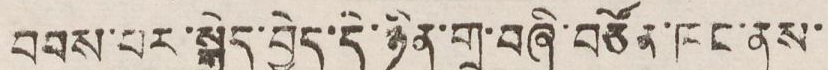བབས་པར་སྒྱིད་བྱེད་དེ་ཉིན་གྲ་བཞི་བཙོན་ཁང་ནས་
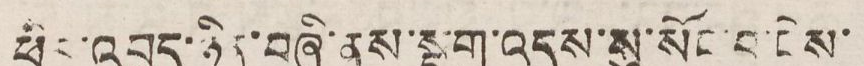ཕྱིར་འབུད་ཉིན་བཞི་ནས་སྡུག་འདས་སུ་སོང་བ་ངེས་
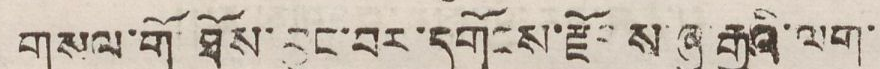གསལ་གོ ཐོས་བྱུང་དགོངས་རྫོགས་ཞུ་རྒྱུའི་ལག་
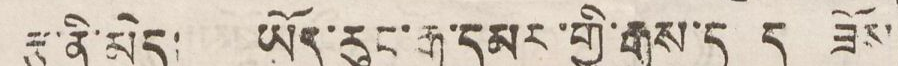རྩ་ནི་མེད། ཡོད་རུང་རྒྱ་དམར་གྱི་རྒྱས་དཔྱད ཟོས
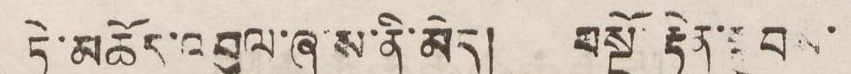ཏེ་མཆོད་འབུལ་ཞུ་ས་ནི་མེད། བསྔོ་རྟེན་སྐྱབས་
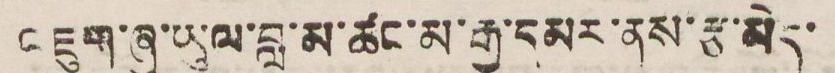འཇུག་ཞུ་ཡུལ་བླ་མ་ཚང་མ་རྒྱ་དམར་ནས་རྩ་མེད་
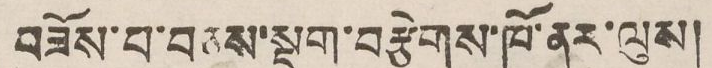བཟོས་པ་བཅས་སྡུག་བརྩེགས་ཁོ་ནར་ལུས།
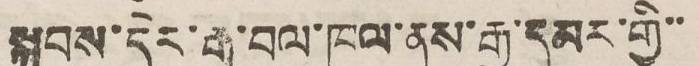སྐབས་དེར་རྒྱ་བལ་ཁུལ་ནས་རྒྱ་དམར་གྱི་་
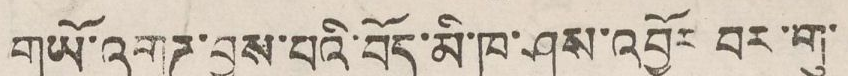གཡོ་འགུཊ་བྱས་པའི་བོད་མི་ཁ་ཤས་འབྱོར བར་གུ་
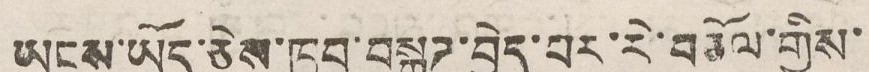ཡངས་ཡོད་ཅེས་ཁྱབ་བསྒྲཊ་བྱེད་པར་རེ་བཅོལ་གྱིས་
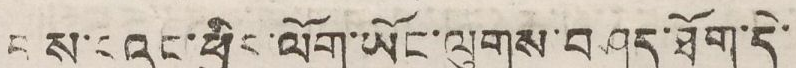གུས་པའང་ཕྱིད་ལོག་ཡོང་ལུགས་བཤད་ཐོག་དེ་
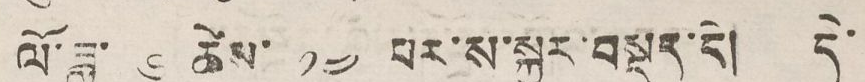ལོ་ཟླ་ ༦ ཚེས་ ༡༤ པར་སྐྱར་བསྡད་དེ། དེ་
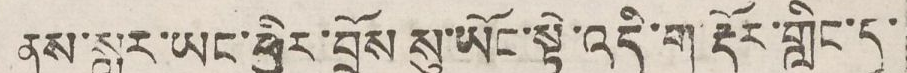ནས་སླར་ཡང་ཕྱིར་བྲོས སུ་ཡོང་སྟེ་འདི་ག་རྡོར་གླིང་དུ་
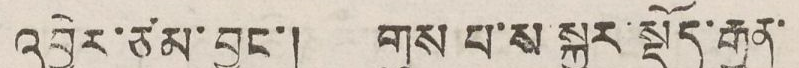འབྱེར་ཙམ་བྱུང་། གུས པ་ས སྐྱར་སྡོད་རྒྱུན་
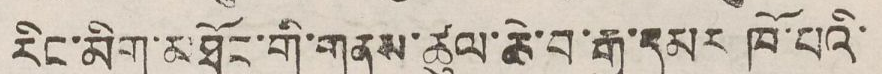རིང་མིག་མཐོང་གི་གནས་ཚུལ་ཆེ་བ་རྒྱ་དམར ཁོ་པའི་
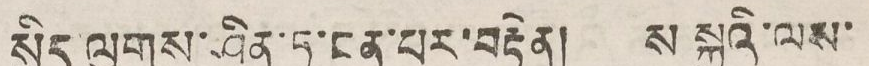སྲིད ལུགས་ཤིན་ཏུ་ངན་པར་བརྟེན། ས སྐྱའི་ལས་
